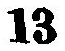13
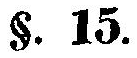§. 15.
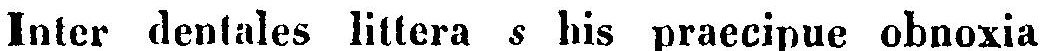Inter dentales littera s his praecipue obnoxia
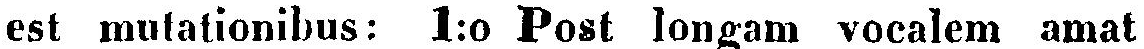est mutationibus: 1:o Post longam vocalem amat
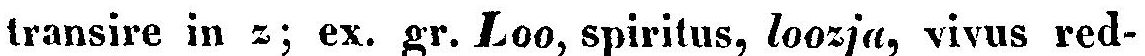transire in z; ex. gr. Loo, spiritus, loozja, vivus red-
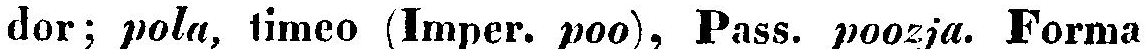dor; pola, timeo (Imper. poo), Pass. poozja. Forma
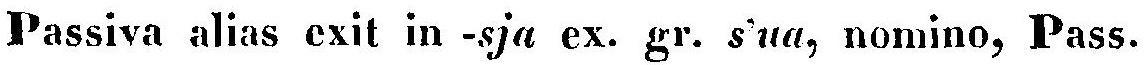Passiva alias exit in -sja ex. gr. s'ua, nomino, Pass.
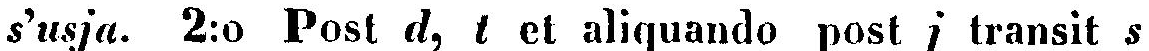s'usja. 2:o Post d, t et aliquando post j transit s
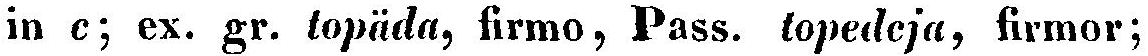in c; ex. gr. topäda, firmo, Pass. topedeja, firmor;
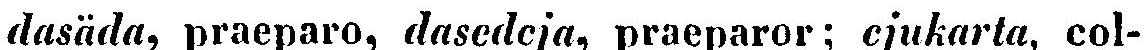dasäda, praeparo, dasedcja, praeparor ; cjukarta, col-
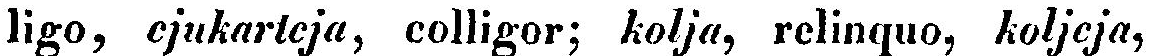ligo, cjukartcja, colligor: kolja, relinquo, koljcja,
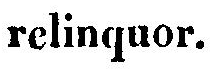relinquor.
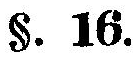§. 16.
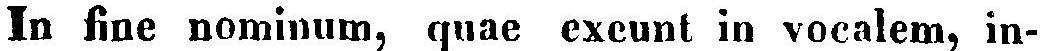In fine nominum, quae exeunt in vocalem, in-
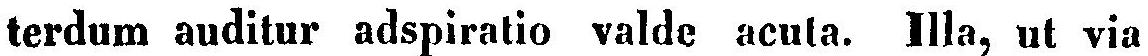terdum auditur adspiratio valde acuta. Illa, ut via
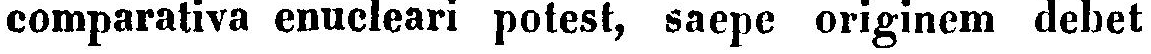comparativa enucleari potest, saepe originem debet
